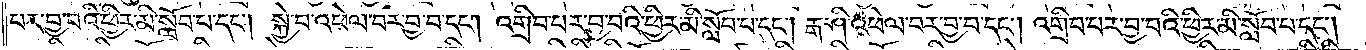པར་བྱ་བའི་ཕྱིར་མི་སློབ་པ་དང༌། སྐྱེ་བ་འཕེལ་བར་བྱ་བ་དང༌། འགྲིབ་པར་བྱ་བའི་ཕྱིར་མི་སློབ་པ་དང༌། རྒ་ཤི་འཕེལ་བར་བྱ་བ་དང༌། འགྲིབ་པར་བྱ་བའི་ཕྱིར་མི་སློབ་པ་དང༌།
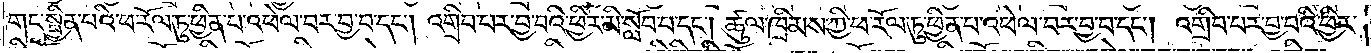གང་སྦྱིན་པའི་ཕ་རོལ་ཏུ་ཕྱིན་པ་འཕེལ་བར་བྱ་བ་དང༌། འགྲིབ་པར་བྱ་བའི་ཕྱིར་མི་སློབ་པ་དང༌། ཚུལ་ཁྲིམས་ཀྱི་ཕ་རོལ་ཏུ་ཕྱིན་པ་འཕེལ་བར་བྱ་བ་དང༌། འགྲིབ་པར་བྱ་བའི་ཕྱིར་
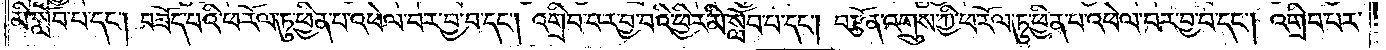མི་སློབ་པ་དང༌། བཟོད་པའི་ཕ་རོལ་ཏུ་ཕྱིན་པ་འཕེལ་བར་བྱ་བ་དང༌། འགྲིབ་པར་བྱ་བའི་ཕྱིར་མི་སློབ་པ་དང༌། བརྩོན་འགྲུས་ཀྱི་ཕ་རོལ་ཏུ་ཕྱིན་པ་འཕེལ་བར་བྱ་བ་དང༌། འགྲིབ་པར་
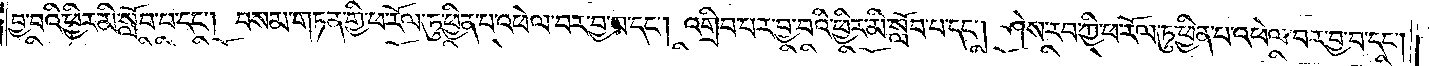བྱ་བའི་ཕྱིར་མི་སློབ་པ་དང༌། བསམ་གཏན་གྱི་ཕ་རོལ་ཏུ་ཕྱིན་པ་འཕེལ་བར་བྱ་བ་དང༌། འགྲིབ་པར་བྱ་བའི་ཕྱིར་མི་སློབ་པ་དང༌། ཤེས་རབ་ཀྱི་ཕ་རོལ་ཏུ་ཕྱིན་པ་འཕེལ་བར་བྱ་བ་དང༌།
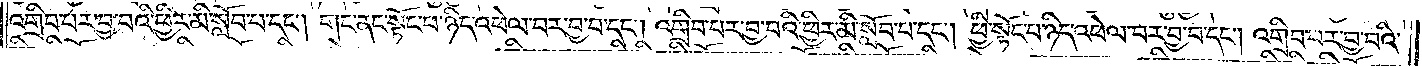འགྲིབ་པར་བྱ་བའི་ཕྱིར་མི་སློབ་པ་དང༌། གང་ནང་སྟོང་པ་ཉིད་འཕེལ་བར་བྱ་བ་དང༌། འགྲིབ་པར་བྱ་བའི་ཕྱིར་མི་སློབ་པ་དང༌། ཕྱི་སྟོང་པ་ཉིད་འཕེལ་བར་བྱ་བ་དང༌། འགྲིབ་པར་བྱ་བའི་
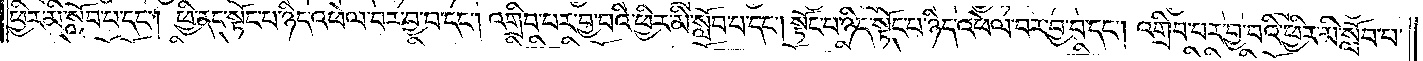ཕྱིར་མི་སློབ་པ་དང༌། ཕྱི་ནང་སྟོང་པ་ཉིད་འཕེལ་བར་བྱ་བ་དང༌། འགྲིབ་པར་བྱ་བའི་ཕྱིར་མི་སློབ་པ་དང༌། སྟོང་པ་ཉིད་སྟོང་པ་ཉིད་འཕེལ་བར་བྱ་བ་དང༌། འགྲིབ་པར་བྱ་བའི་ཕྱིར་མི་སློབ་པ་
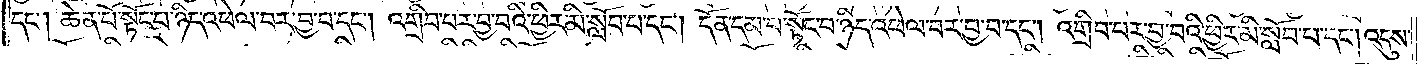དང༌། ཆེན་པོ་སྟོང་པ་ཉིད་འཕེལ་བར་བྱ་བ་དང༌། འགྲིབ་པར་བྱ་བའི་ཕྱིར་མི་སློབ་པ་དང༌། དོན་དམ་པ་སྟོང་པ་ཉིད་འཕེལ་བར་བྱ་བ་དང༌། འགྲིབ་པར་བྱ་བའི་ཕྱིར་མི་སློབ་པ་དང༌། འདུས་
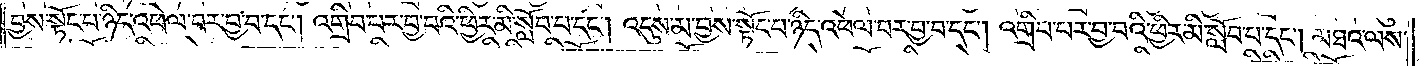བྱས་སྟོང་པ་ཉིད་འཕེལ་བར་བྱ་བ་དང༌། འགྲིབ་པར་བྱ་བའི་ཕྱིར་མི་སློབ་པ་དང༌། འདུས་མ་བྱས་སྟོང་པ་ཉིད་འཕེལ་བར་བྱ་བ་དང༌། འགྲིབ་པར་བྱ་བའི་ཕྱིར་མི་སློབ་པ་དང༌། མཐའ་ལས་
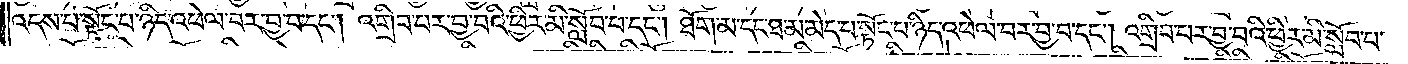འདས་པ་སྟོང་པ་ཉིད་འཕེལ་བར་བྱ་བ་དང༌། འགྲིབ་པར་བྱ་བའི་ཕྱིར་མི་སློབ་པ་དང༌། ཐོག་མ་དང་ཐ་མ་མེད་པ་སྟོང་པ་ཉིད་འཕེལ་བར་བྱ་བ་དང༌། འགྲིབ་པར་བྱ་བའི་ཕྱིར་མི་སློབ་པ་
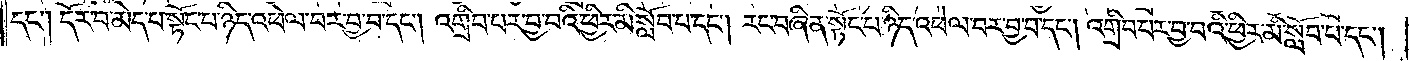དང༌། དོར་བ་མེད་པ་སྟོང་པ་ཉིད་འཕེལ་བར་བྱ་བ་དང༌། འགྲིབ་པར་བྱ་བའི་ཕྱིར་མི་སློབ་པ་དང༌། རང་བཞིན་སྟོང་པ་ཉིད་འཕེལ་བར་བྱ་བ་དང༌། འགྲིབ་པར་བྱ་བའི་ཕྱིར་མི་སློབ་པ་དང༌།
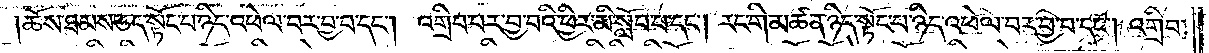ཆོས་ཐམས་ཅད་སྟོང་པ་ཉིད་འཕེལ་བར་བྱ་བ་དང༌། འགྲིབ་པར་བྱ་བའི་ཕྱིར་མི་སློབ་པ་དང༌། རང་གི་མཚན་ཉིད་སྟོང་པ་ཉིད་འཕེལ་བར་བྱ་བ་དང༌། འགྲིབ་
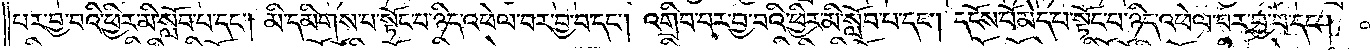པར་བྱ་བའི་ཕྱིར་མི་སློབ་པ་དང༌། མི་དམིགས་པ་སྟོང་པ་ཉིད་འཕེལ་བར་བྱ་བ་དང༌། འགྲིབ་པར་བྱ་བའི་ཕྱིར་མི་སློབ་པ་དང༌། དངོས་པོ་མེད་པ་སྟོང་པ་ཉིད་འཕེལ་བར་བྱ་བ་དང༌།
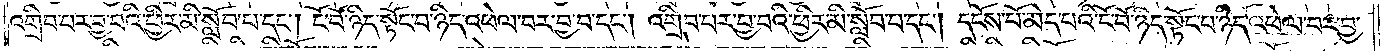འགྲིབ་པར་བྱ་བའི་ཕྱིར་མི་སློབ་པ་དང༌། ངོ་བོ་ཉིད་སྟོང་པ་ཉིད་འཕེལ་བར་བྱ་བ་དང༌། འགྲིབ་པར་བྱ་བའི་ཕྱིར་མི་སློབ་པ་དང༌། དངོས་པོ་མེད་པའི་ངོ་བོ་ཉིད་སྟོང་པ་ཉིད་འཕེལ་བར་བྱ་
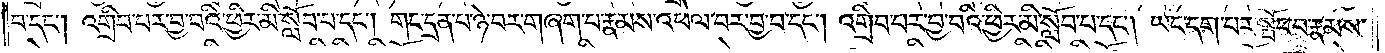བ་དང༌། འགྲིབ་པར་བྱ་བའི་ཕྱིར་མི་སློབ་པ་དང༌། གང་དྲན་པ་ཉེ་བར་བཞག་པ་རྣམས་འཕེལ་བར་བྱ་བ་དང༌། འགྲིབ་པར་བྱ་བའི་ཕྱིར་མི་སློབ་པ་དང༌། ཡང་དག་པར་སྤོང་བ་རྣམས་
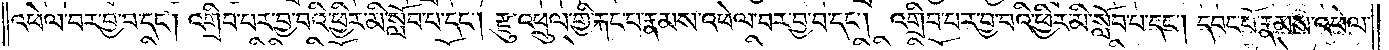འཕེལ་བར་བྱ་བ་དང༌། འགྲིབ་པར་བྱ་བའི་ཕྱིར་མི་སློབ་པ་དང༌། རྫུ་འཕྲུལ་གྱི་རྐང་པ་རྣམས་འཕེལ་བར་བྱ་བ་དང༌། འགྲིབ་པར་བྱ་བའི་ཕྱིར་མི་སློབ་པ་དང༌། དབང་པོ་རྣམས་འཕེལ་
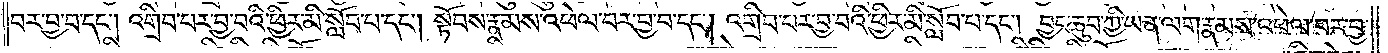བར་བྱ་བ་དང༌། འགྲིབ་པར་བྱ་བའི་ཕྱིར་མི་སློབ་པ་དང༌། སྟོབས་རྣམས་འཕེལ་བར་བྱ་བ་དང༌། འགྲིབ་པར་བྱ་བའི་ཕྱིར་མི་སློབ་པ་དང༌། བྱང་ཆུབ་ཀྱི་ཡན་ལག་རྣམས་འཕེལ་བར་བྱ་
